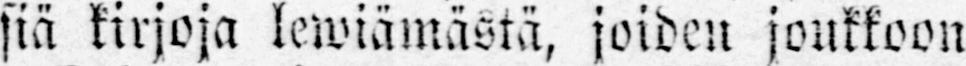siä kirjoja lewiämästä, joiden joukkoon
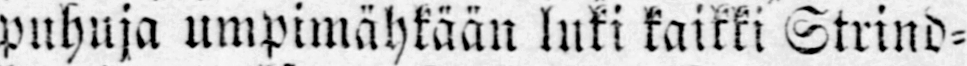puhuja umpimähkään luki kaikki Strind-
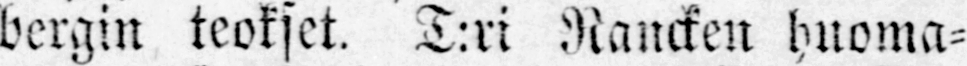bergin teokset. T:ri Rancken huoma-
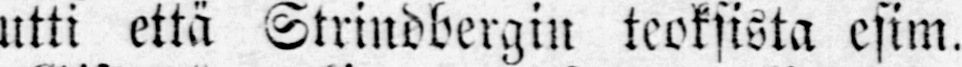utti että Strindbergin teoksista esim.
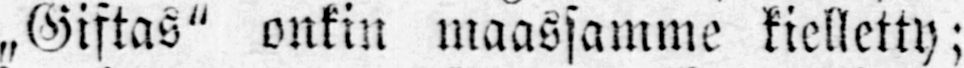„Giftas" onkin maassamme kielletty;
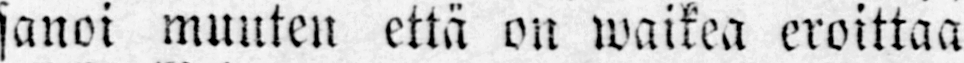sanoi muuten että on waikea eroittaa
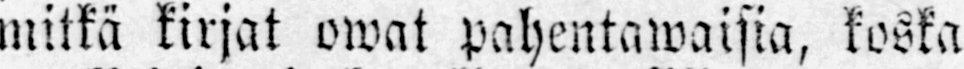mitkä kirjat owat pahentawaisia, koska
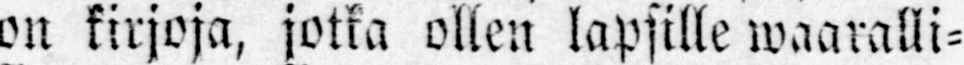on kirjoja, jotka ollen lapsille waaralli-
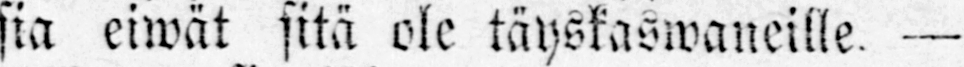sia eiwät sitä ole täyskaswaneille. —
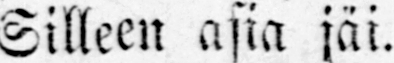Silleen asia jäi.
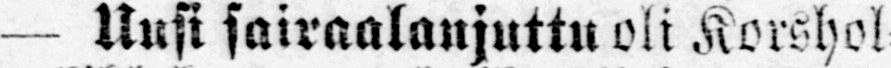— Uusi sairaalanjuttu oli Korshol-
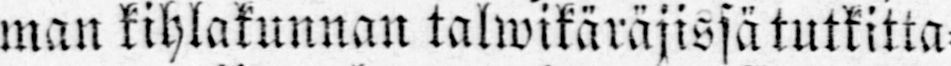man kihlakunnan talwikäräjissä tutkitta-
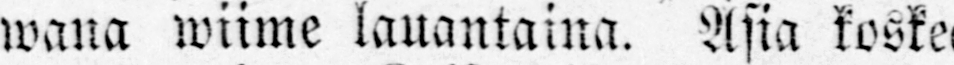wana wiime lauantaina. Asia koskee
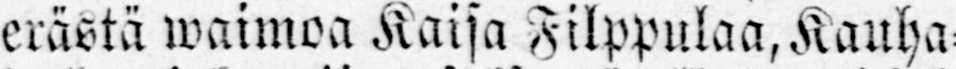erästä waimoa Kaisa Filppulaa, Kauha-
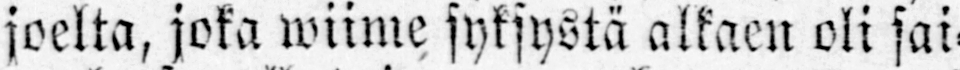joelta, joka wiime syksystä alkaen oli sai-
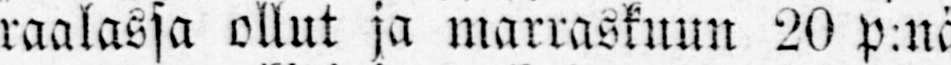raalassa ollut ja marraskuun 20 p:nä
